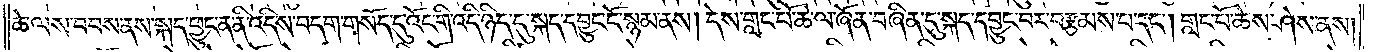ཚེ་ལས་བབས་ནས་སྐད་ཕྱུང་ན་ནི་འདིས་བདག་གསོད་དུ་འོང་གི་འདི་ཉིད་དུ་སྐད་དབྱུང་ངོ་སྙམ་ནས། དེས་གླང་པོ་ཆེ་ལ་ཞོན་བཞིན་དུ་སྐད་དབྱུང་བར་བརྩམས་པ་དང༌། གླང་པོ་ཆེས་ཤེས་ནས།
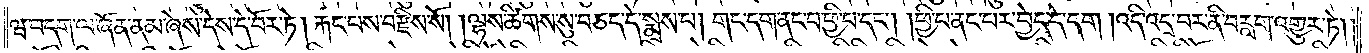ཝ་བདག་ལ་ཞོན་ནམ་ཞེས་དེས་དེ་བོར་ཏེ། རྐང་པས་བརྫིས་སོ། །ཝས་ཚིགས་སུ་བཅད་དེ་སྨྲས་པ། གང་དག་ནང་པ་ཕྱི་པ་དང༌། །ཕྱི་པ་ནང་པར་བྱེད་དེ་དག །འདི་འདྲ་བར་ནི་བརླག་འགྱུར་ཏེ། །
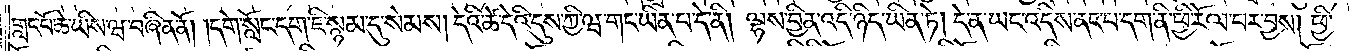གླང་པོ་ཆེ་ཡིས་ཝ་བཞིན་ནོ། །དགེ་སློང་དག་ཇི་སྙམ་དུ་སེམས། དེའི་ཚེ་དེའི་དུས་ཀྱི་ཝ་གང་ཡིན་པ་དེ་ནི། ལྷས་བྱིན་འདི་ཉིད་ཡིན་ཏེ། དེ་ན་ཡང་འདིས་ནང་པ་དག་ནི་ཕྱི་རོལ་པར་བྱས། ཕྱི་
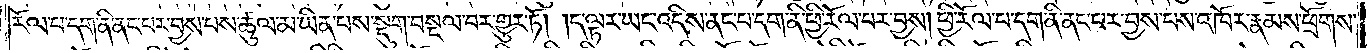རོལ་པ་དག་ནི་ནང་པར་བྱས་པས་ཚུལ་མ་ཡིན་པས་སྡུག་བསྔལ་བར་གྱུར་ཏོ། །ད་ལྟར་ཡང་འདིས་ནང་པ་དག་ནི་ཕྱི་རོལ་པར་བྱས། ཕྱི་རོལ་པ་དག་ནི་ནང་པར་བྱས་པས་འཁོར་རྣམས་ཕྲོགས་
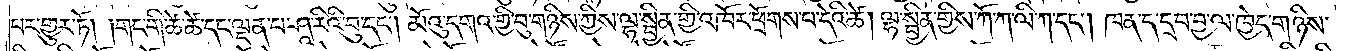པར་གྱུར་ཏོ། །གང་གི་ཚེ་ཚེ་དང་ལྡན་པ་ཤཱ་རིའི་བུ་དང༌། མོའུ་དགའ་གྱི་བུ་གཉིས་ཀྱིས་ལྷ་སྦྱིན་གྱི་འཁོར་ཕྲོགས་པ་དེའི་ཚེ། ལྷ་སྦྱིན་གྱིས་ཀོ་ཀ་ལི་ཀ་དང༌། ཁན་ད་དྲ་བ་བྱ་ལ་ཁྱེད་གཉིས་
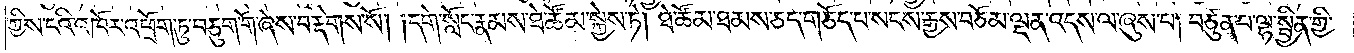ཀྱིས་ངའི་འཁོར་འཕྲོག་ཏུ་བཅུག་གོ་ཞེས་བརྡེགས་སོ། །དགེ་སློང་རྣམས་ཐེ་ཚོམ་སྐྱེས་ཏེ། ཐེ་ཚོམ་ཐམས་ཅད་གཅོད་པ་སངས་རྒྱས་བཅོམ་ལྡན་འདས་ལ་ཞུས་པ། བཙུན་པ་ལྷ་སྦྱིན་གྱི་
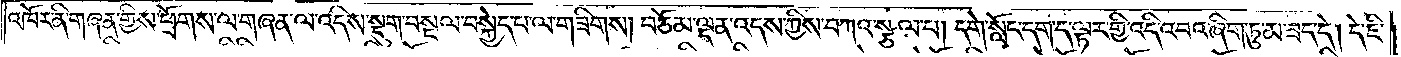འཁོར་ནི་གཞན་གྱིས་ཕྲོགས་ལ་གཞན་ལ་འདིས་སྡུག་བསྔལ་བསྐྱེད་པ་ལ་གཟིགས། བཅོམ་ལྡན་འདས་ཀྱིས་བཀའ་སྩལ་པ། དགེ་སློང་དག་ད་ལྟར་གྱི་འདི་འབའ་ཞིག་ཏུ་མ་ཟད་དེ། དེ་ཇི་
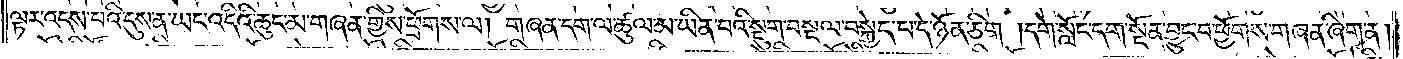ལྟར་འདས་པའི་དུས་ན་ཡང་འདིའི་ཆུང་མ་གཞན་གྱིས་ཕྲོགས་ལ། གཞན་དག་ལ་ཚུལ་མ་ཡིན་པའི་སྡུག་བསྔལ་བསྐྱེད་པ་དེ་ཉོན་ཅིག །དགེ་སློང་དག་སྔོན་བྱུང་བ་ཕྱོགས་གཞན་ཞིག་ན།
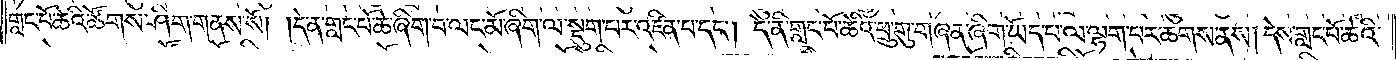གླང་པོ་ཆེའི་ཚོགས་ཤིག་གནས་སོ། །དེ་ན་གླང་པོ་ཆེ་ཞིག་པ་ལང་མོ་ཞིག་ལ་སྡུག་པར་འཛིན་པ་དང༌། དེ་ནི་གླང་པོ་ཆེའི་ཕྲུ་གུ་གཞན་ཞིག་ཡོད་པ་ལ་ལྷག་པར་ཆགས་ནས། དེས་གླང་པོ་ཆེའི་
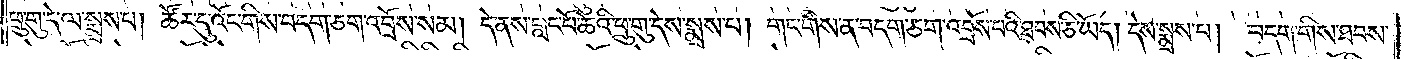ཕྲུ་གུ་དེ་ལ་སྨྲས་པ། ཚོར་དུ་འོང་གིས་བདག་ཅག་འབྲོས་སམ། དེ་ནས་གླང་པོ་ཆེའི་ཕྲུ་གུ་དེས་སྨྲས་པ། གང་གིས་ན་བདག་ཅག་འབྲོས་པའི་ཐབས་ཅི་ཡོད། དེས་སྨྲས་པ། བདག་གིས་ཐབས་
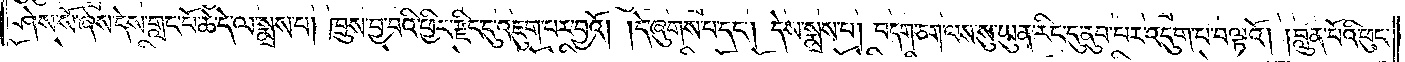ཤེས་སོ་ཞེས་དེས་གླང་པོ་ཆེ་དེ་ལ་སྨྲས་པ། ཁྲུས་བྱ་བའི་ཕྱིར་རྫིང་དུ་འཇུག་པར་བྱའོ། །དེ་ཞུགས་པ་དང༌། དེས་སྨྲས་པ། བདག་ཅག་ལས་སུ་ཡུན་རིང་དུ་ནུབ་པར་འདུག་པ་བལྟའོ། །བླུན་པོའི་ཕུང་
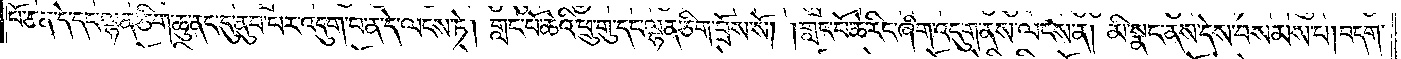པོ་ཅན་དེ་དང་ལྷན་ཅིག་ཆུ་ནང་དུ་ནུབ་པར་འདུག་པ་ན་དེ་ལངས་ཏེ། གླང་པོ་ཆེའི་ཕྲུ་གུ་དང་ལྷན་ཅིག་བྲོས་སོ། །གླང་པོ་ཆེ་རིང་ཞིག་འདུག་ནས་ལངས་ན། མི་སྣང་ནས་དེས་བསམས་པ། བདག་
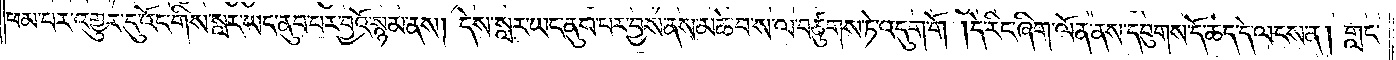ཕམ་པར་འགྱུར་དུ་འོང་གིས་སླར་ཡང་ནུབ་པར་བྱའོ་སྙམ་ནས། དེས་སླར་ཡང་ནུབ་པར་བྱས་ནས་མཆེ་བ་ས་ལ་བཙུགས་ཏེ་འདུག་གོ །དེ་རིང་ཞིག་ལོན་ནས་དབུགས་དོ་ཆད་དེ་ལངས་ན། གླང་
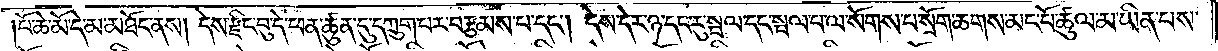པོ་ཆེ་མོ་དེ་མ་མཐོང་ནས། དེས་རྫིང་བུ་དེ་ཕན་ཚུན་དུ་དཀྲུག་པར་བརྩམས་པ་དང༌། དེས་དེར་ཉ་དང་རུ་སྦལ་དང་སྦལ་པ་ལ་སོགས་པ་སྲོག་ཆགས་མང་པོ་ཚུལ་མ་ཡིན་པས་
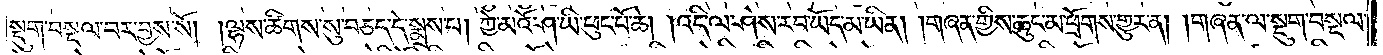སྡུག་བསྔལ་བར་བྱས་སོ། །ལྷས་ཚིགས་སུ་བཅད་དེ་སྨྲས་པ། ཀྱེ་མའོ་ཤ་ཡི་ཕུང་པོ་ཆེ། །འདི་ལ་ཤེས་རབ་ཡོད་མ་ཡིན། །གཞན་གྱིས་ཆུང་མ་ཕྲོགས་གྱུར་ན། །གཞན་ལ་སྡུག་བསྔལ་
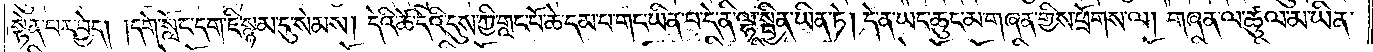སྟེན་པར་བྱེད། །དགེ་སློང་དག་ཇི་སྙམ་དུ་སེམས། དེའི་ཚེ་དེའི་དུས་ཀྱི་གླང་པོ་ཆེ་དམ་པ་གང་ཡིན་པ་དེ་ནི་ལྷ་སྦྱིན་ཡིན་ཏེ། དེ་ན་ཡང་ཆུང་མ་གཞན་གྱིས་ཕྲོགས་ལ། གཞན་ལ་ཚུལ་མ་ཡིན་
